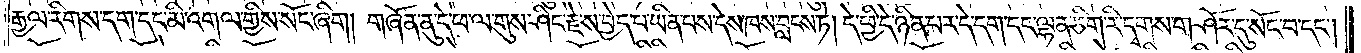རྒྱལ་རིགས་དག་དང་མི་འགལ་གྱིས་སོང་ཞིག། གཞོན་ནུ་དེ་ཕ་ལ་གུས་ཤིང་རྗེས་བྱེད་པ་ཡིན་པས་དེས་ཁས་བླངས་ཏེ། དེ་ཕྱི་དེ་ཉིན་པར་དེ་དག་དང་ལྷན་ཅིག་རི་དྭགས་གཤོར་དུ་སོང་བ་དང༌།
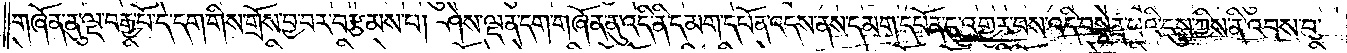གཞོན་ནུ་ལྔ་བརྒྱ་པོ་དེ་དག་གིས་གྲོས་བྱ་བར་བརྩམས་པ། ཤེས་ལྡན་དག་གཞོན་ནུ་འདི་ནི་དམག་དཔོན་འདས་ནས་དམག་དཔོན་དུ་འགྱུར་བས་འདི་བསྟེན་པའི་དུས་ཀྱིས་ནི་འབྲས་བུ་
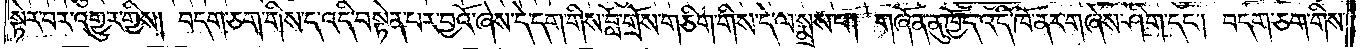སྟེར་བར་འགྱུར་གྱིས། བདག་ཅག་གིས་ད་འདི་བསྟེན་པར་བྱའོ་ཞེས་དེ་དག་གིས་བློ་གྲོས་གཅིག་གིས་དེ་ལ་སྨྲས་པ། གཞོན་ནུ་ཁྱོད་འདི་ཁོ་ནར་གཞེས་ཤིག་དང༌། བདག་ཅག་གིས་
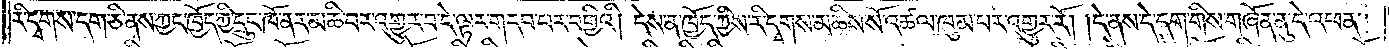རི་དྭགས་དག་ཅི་ནས་ཀྱང་ཁྱོད་ཀྱི་དྲུང་ཁོ་ནར་མཆི་བར་འགྱུར་བ་དེ་ལྟར་གདབ་པར་བགྱིའི། །དེས་ན་ཁྱོད་ཀྱིས་རི་དྭགས་མཆིས་སོ་འཚལ་ཁུམ་པར་འགྱུར་རོ། །དེ་ནས་དེ་དག་གིས་གཞོན་ནུ་དེ་འཕན་
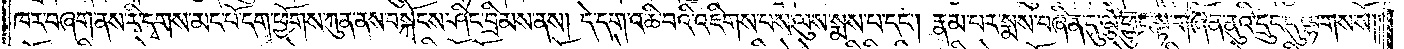ཁར་བཞག་ནས་རི་དྭགས་མང་པོ་དག་ཕྱོགས་ཀུན་ནས་བསྐོངས་ཤིང་བྲིམས་ནས། དེ་དག་འཆི་བའི་འཇིགས་པས་ལུས་སྨས་པ་དང༌། རྣམ་པར་སྨས་བཞིན་དུ་ལྕེ་ཕྱུང་སྟེ་གཞོན་ནུའི་དྲུང་དུ་ལྷགས་སོ༎
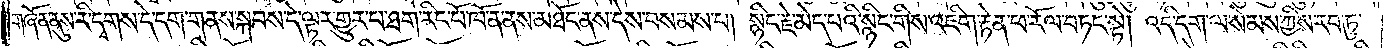གཞོན་ནུས་རི་དྭགས་དེ་དག་གནས་སྐབས་དེ་ལྟར་གྱུར་པ་ཐག་རིང་པོ་ཁོ་ན་ནས་མཐོང་ནས་དེས་བསམས་པ། སྙིང་རྗེ་མེད་པའི་སྙིང་གིས་འཇིག་རྟེན་ཕ་རོལ་བཏང་སྟེ། འདི་དག་ལ་སེམས་ཀྱིས་རབ་ཏུ་
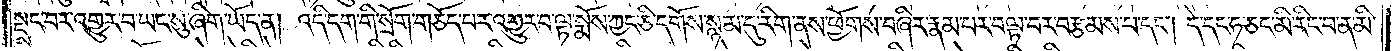སྡང་བར་འགྱུར་བ་ཡང་སུ་ཞིག་ཡོད་ན། འདི་དག་གི་སྲོག་གཅོད་པར་འགྱུར་བ་ལྟ་སྨོས་ཀྱང་ཅི་དགོས་སྙམ་དུ་རིག་ནས་ཕྱོགས་བཞིར་རྣམ་པར་བལྟ་བར་བརྩམས་པ་དང༌། དེ་དང་ཧ་ཅང་མི་རིང་བ་ན་མི་
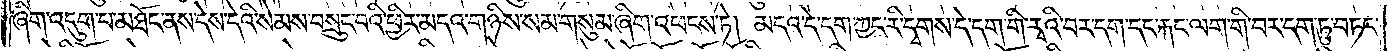ཞིག་འདུག་པ་མཐོང་ནས་དེས་དེའི་སེམས་བསྲུང་བའི་ཕྱིར་མདའ་གཉིས་སམ་གསུམ་ཞིག་འཕངས་ཏེ། མདའ་དེ་དག་ཀྱང་རི་དྭགས་དེ་དག་གི་རྭའི་བར་དག་དང་རྐང་ལག་གི་བར་དག་ཏུ་བཏང་
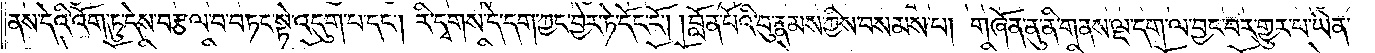ནས་དེའི་འོག་ཏུ་དེས་བརྩལ་བ་བཏང་སྟེ་འདུག་པ་དང༌། རི་དྭགས་དེ་དག་ཀྱང་བྱེར་ཏེ་དོང་ངོ༌། །བློན་པོའི་བུ་རྣམས་ཀྱིས་བསམས་པ། གཞོན་ནུ་ནི་གནས་ལྔ་དག་ལ་བྱང་བར་གྱུར་པ་ཡིན་
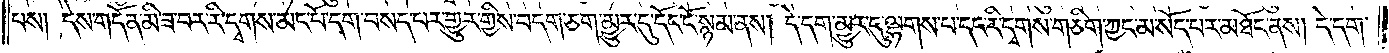པས། དེས་གདོན་མི་ཟ་བར་རི་དྭགས་མང་པོ་དག་བསད་པར་གྱུར་གྱིས་བདག་ཅག་མྱུར་དུ་དོང་ངོ་སྙམ་ནས། དེ་དག་མྱུར་དུ་ལྷགས་པ་དང་རི་དྭགས་གཅིག་ཀྱང་མ་སོད་པར་མཐོང་ནས། དེ་དག་
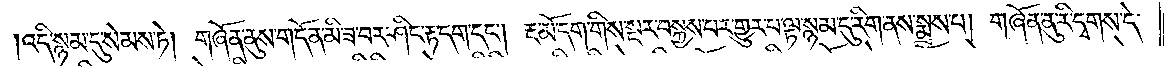འདི་སྙམ་དུ་སེམས་ཏེ། གཞོན་ནུས་གདོན་མི་ཟ་བར་ཤིང་རྟ་དག་དང༌། རྔ་མོ་དག་གིས་སྔར་བསྐྱས་པར་གྱུར་པ་ལྟ་སྙམ་དུ་རིག་ནས་སྨྲས་པ། གཞོན་ནུ་རི་དྭགས་དེ་
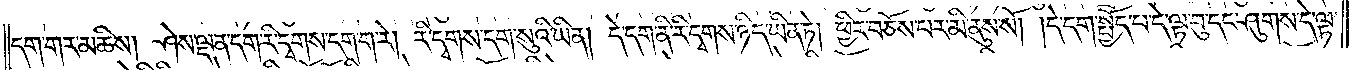དག་གར་མཆིས། ཤེས་ལྡན་དག་རི་དྭགས་དག་ག་རེ། རི་དྭགས་དག་སུའི་ཡིན། དེ་དག་ནི་རི་དྭགས་ཉིད་ཡིན་ཏེ། ཕྱིར་བཅོས་པར་མི་ནུས་སོ། །དེ་དག་སྤྱོད་པ་དེ་ལྟ་བུ་དང་ཤུགས་དེ་ལྟ་
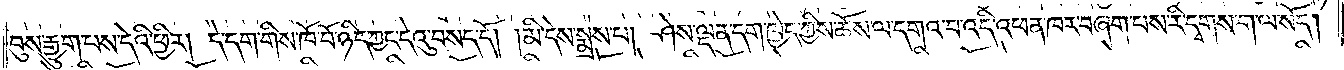བུས་རྒྱུག་པས་དེའི་ཕྱིར། དེ་དག་གིས་ཁོ་བོ་ཉིད་ཀྱང་དེའུ་བསད་དོ། །མི་དེས་སྨྲས་པ། ཤེས་ལྡན་དག་ཁྱེད་ཀྱིས་ཆོས་ལ་དགའ་བ་འདི་འཕན་ཁར་བཞག་པས་རི་དྭགས་ག་ལ་སོད།
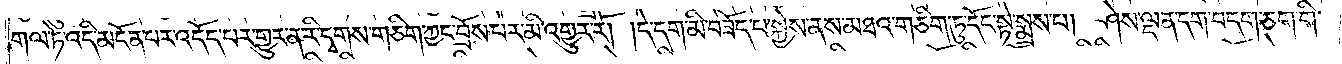གལ་ཏེ་འདི་མངོན་པར་འདོད་པར་གྱུར་ན་རི་དྭགས་གཅིག་ཀྱང་བྲོས་པར་མི་འགྱུར་རོ། །དེ་དག་མི་བཟོད་པ་སྐྱེས་ནས་མཐའ་གཅིག་ཏུ་དོང་སྟེ་སྨྲས་པ། ཤེས་ལྡན་དག་བདག་ཅག་གི་
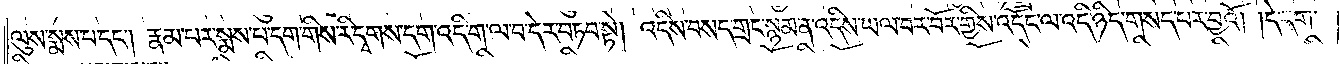ལུས་སྨས་པ་དང༌། རྣམ་པར་སྨས་པ་དག་གིས་རི་དྭགས་དག་འདི་ག་ལ་བ་དེར་བཏབ་སྟེ། འདིས་བསད་གྲང་སྙམ་ན་འདིས་ཡལ་བར་བོར་གྱིས་འདོང་ལ་འདི་ཉིད་གསད་པར་བྱའོ། །དེ་དག་
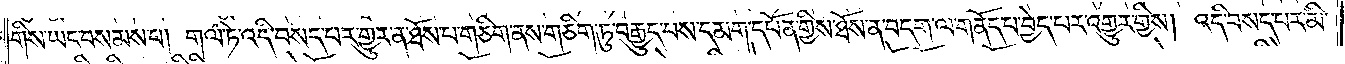གིས་ཡང་བསམས་པ། གལ་ཏེ་འདི་བསད་པར་གྱུར་ན་ཐོས་པ་གཅིག་ནས་གཅིག་ཏུ་བརྒྱུད་པས་དམག་དཔོན་གྱིས་ཐོས་ན་བདག་ལ་གནོད་པ་བྱེད་པར་འགྱུར་གྱིས། འདི་བསད་པར་མི་
